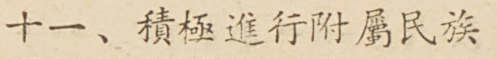十一、積極進行附屬民族
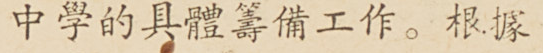中學的具體籌備工作。根據
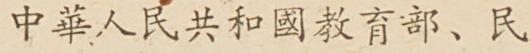中華人民共和國教育部、民
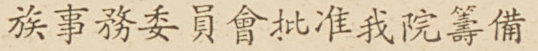族事務委員會批准我院籌備
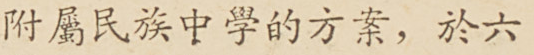附屬民族中學的方案，於六
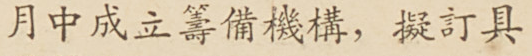月中成立籌備機構，擬訂具
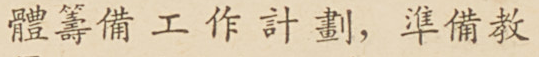體籌備工作計劃，準備教
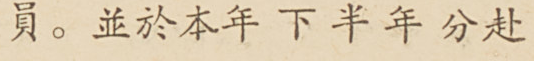員。並於本年下半年分赴
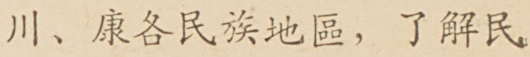川、康各民族地區，了解民
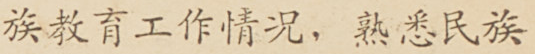族教育工作情況，熟悉民族
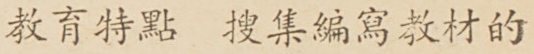教育特點，搜集編寫教材的
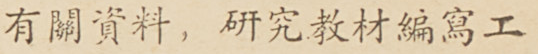有關資料，研究教材編寫工
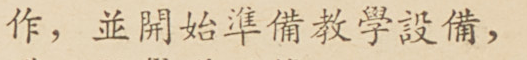作，並開始準備教學設備，
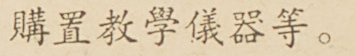購置教學儀器等。
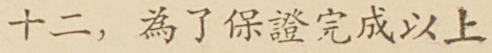十二，爲了保證完成以上
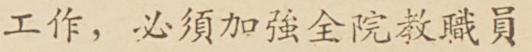工作，必須加強全院教職員
